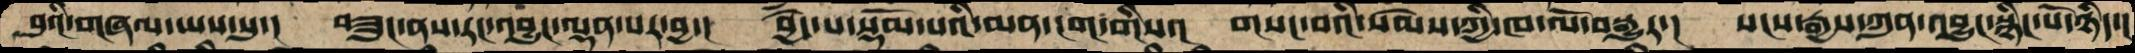བུའི་གཞལ་ཡས་སུ་།  བཟུང་ནས་རང་འབྱུང་ལྡན་པར་བྱ་།   བྱེད་པ་སྡོམ་པའི་མན་ངག་གིས་།  གསང་བའི་སེམས་ཀྱི་ཁ་ལོ་བསྒྱུར་།   སངས་རྒྱས་ཀུན་འབྱུང་སྙིང་པོ་ཉིད་།
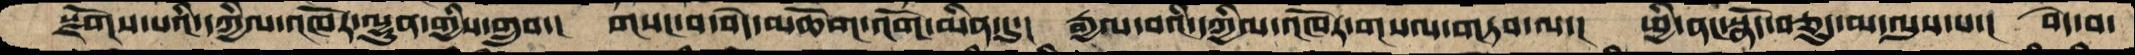སྫོགས་པའི་དཀྱིལ་འཁོར་ལྷུན་གྱིས་གྲུབ་།  གསང་བ་བདེ་མཆོག་འོག་མིན་དུ་།  རྒྱལ་བའི་དཀྱིལ་འཁོར་གསལ་གཏབ་ལ་།  ཕྱི་ནང་སྣོད་བཅུད་མ་ལུས་པ་།  བདེ་བ་
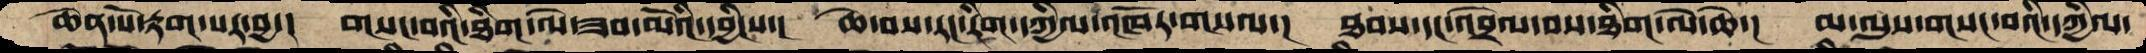ཆེན་པོ་རྟག་པར་བྱ་།  གསང་བའི་ཐིག་ལེ་ཟབ་མོའི་དབྱིངས་།  ཆེ་བས་རང་རིག་དཀྱིལ་འཁོར་གསལ་།  ཐབས་དང་འབྲེལ་བས་ཐིག་ལེ་ཆེ་།  མ་ལུས་གསང་བའི་དཀྱིལ་
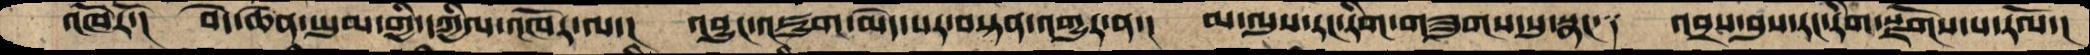འཁོར་ོ།  བདེ་ཆེན་ཡུམ་གྱི་་དཀྱིལ་འཁོར་ལ་།  འབྱུང་འཇུག་མེད་པར་བསྟན་འགྱུར་ན་།  མ་ལུས་རང་རིག་གཟུགས་སུ་སྣང་༑  འབྲས་བུས་རང་རིག་སྫོགས་པ་རོལ་།
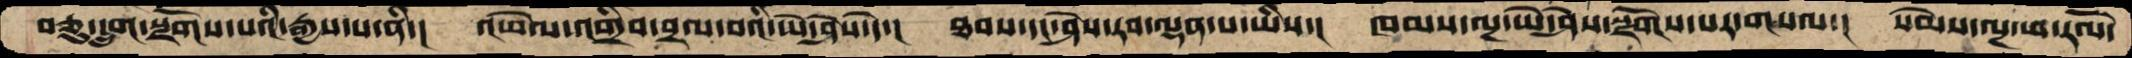བཅུ་དྲུག་སྫོགས་པའི་རྒྱས་པ་ནི་།  འཕེལ་འགྲིབ་བྲལ་བའི་ཡེ་ཤེས་དེ་།  ཐབས་དང་ཤེས་རབ་ལྡན་པ་ཡིས་།  ཁམས་ལྔ་ཡེ་ཤེས་སྫོགས་པར་གསལ་།  སེམས་ལྔ་ཕ་རོལ་
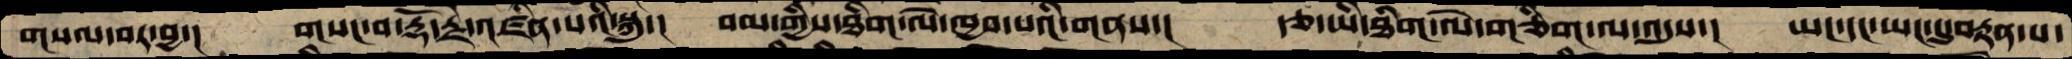གསལ་བར་བྱ་།  གསང་བ་རྡོ་རྗེ་འཛིན་པའི་སྐུ་།  བམ་གྱིས་ཐིག་ལེ་ཁྱབ་པའི་གནས་།   རྩ་ཡི་ཐིག་ལེ་གཅིག་ལ་འདུས་།  ཡང་དང་ཡང་དུ་བརྟན་པ་
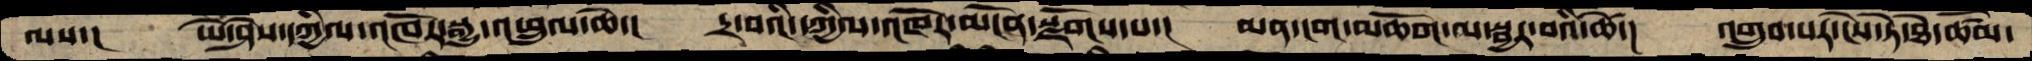ལས་།   ཡེ་ཤེས་དཀྱིལ་འཁོར་སྒྱུ་འཕྲུལ་ཆེ་།  དྲ་བའི་དཀྱིལ་འཁོར་མངོན་སྫོགས་པ་།  མན་ངག་མཆོག་ལ་སྦྱར་བའི་ཚེ་།  འགྲུབ་པར་ངེས་ཏེ་ཐེ་ཚོམ་
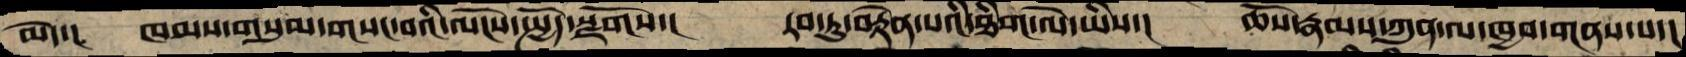མེད་།  ཁམས་གསུམ་གསང་བའི་ལོངས་སྤྱོད་སྫོགས་།  རབ་ཏུ་བརྟེན་པའི་ཐིག་ལེ་ཡིས་།  ཆོས་རྣམས་ཀུན་ལ་ཁྱབ་གནས་པ་།
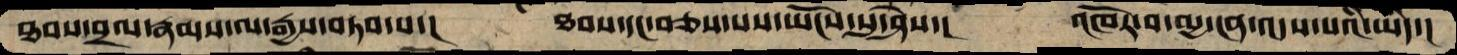ཐབས་བྲལ་རྣམས་ལ་རྒྱས་བཏབ་པ་།  ཐབས་དང་བཅས་པས་ཡོངས་སུ་ཤེེས་།  འཁོར་བ་མྱ་ངན་འདས་པའི་ཡིད་།
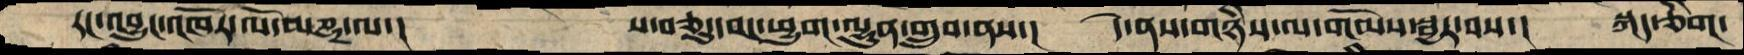རང་འབྱུང་འཁོར་ལོ་མཎྜ་ལ་།        ས་བཅུ་དབང་ཕྱུག་ལྷུན་གྲུབ་ནས་།  དེ་ནས་གཉིས་ལ་གོམས་སྦྱར་བས་།  སྐད་ཅིག་
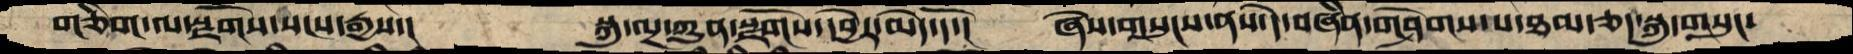གཅིག་ལ་སྫོགས་སངས་རྒྱས་།  སྐུ་ལྔ་ཀུན་སྫོགས་དབྱེར་མེད་དོ་།  ཞེས་གསུངས་ནས་དེ་བཞིན་གཤེགས་པ་ཐམས་ཅད་སྐུ་གསུང་
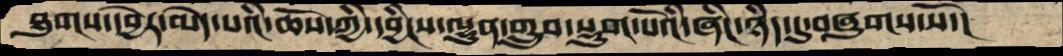ཐུགས་དབྱེར་མེད་པའི་ཆོས་ཀྱི་དབྱིངས་ལྷུན་གྲུབ་སྡུག་པོའི་ཞིང་ཉིད་དུ་བཞུགས་སོ་།
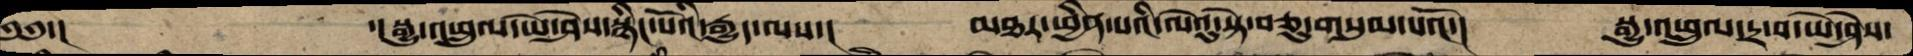༄༅་།        ་།སྒྱུ་འཕྲུལ་ཡེ་ཤེས་སྙིང་པོའི་རྒྱུད་ལས་།      མཐར་ཕྱིན་པའི་ལེའུ་སྟེ་བཅུ་གསུམ་པའོ་།     སྒྱུ་འཕྲུལ་དྲ་བ་ཡེ་ཤེས་
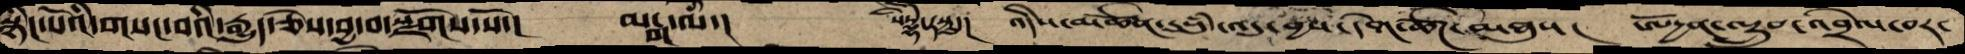སྙིང་པོའི་གསང་བའི་རྒྱུད་ཅེས་བྱ་བ་སྫོགས་སོ་།   མངྒ་ལཾ་།      སིདྡྷི་རསྟུ་།  འདིས་མཚོན་དུསུཾ་འདུ་བྱས་དགེ་ཚོཌ་མཐུས་།  ཨདྱོན་ལྷྲུབ་འབྲེལ་བར་
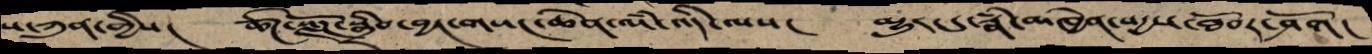པ་ཀུན་གྱིས་།  ཚོཌ་སྫོགས་སྒྲིབ་བྱང་གསང་ཆེན་ལཾ་འདི་ལས།  མྱུར་དུ་རྣཾ་མཁྱེན་སདྱས་ཐོབར་ཤོག།
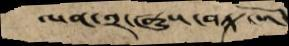ལན་༢་ཞུས་བར་སོ།
